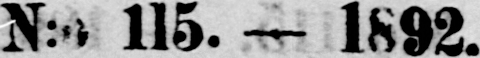N:o 115. — 1892.
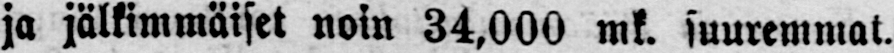ja jälkimmäiset noin 34.000 mk. suuremmat.
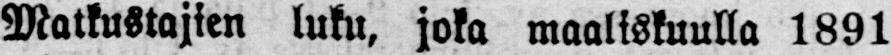Matkustajien luku. joka maaliskuulla 1891
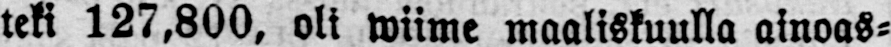teki 127,800, oli wiime maaliskuulla ainoas-
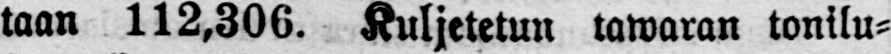taan 112,306. Kuljetetun tawaran tonilu-
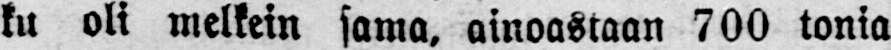ku oli melkein sama, ainoastaan 700 tonia
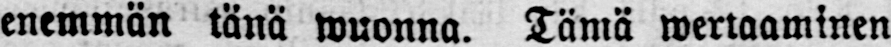enemmän tänä wuonna. Tämä wertaaminen
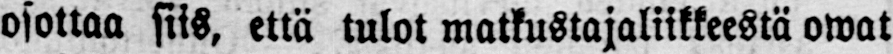osottaa siis, että tulot matkustajaliikkeestä owat
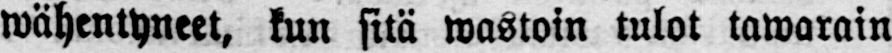wähentyneet, kun sitä wastoin tulot tawarain
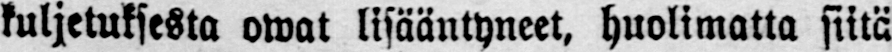kuljetuksesta owat lisääntyneet, huolimatta siitä
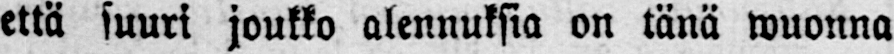että suuri joukko alennuksia on tänä wuonna
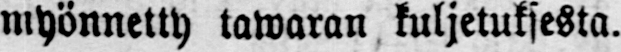myönnetty tawaran kuljetuksesta.
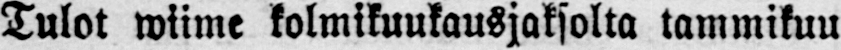Tulot wiime kolmikuukausjaksolta tammikuu
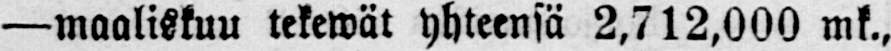—maaliskuu tekewät yhteensä 2,712,000 mk.,
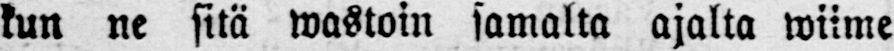kun ne sitä wastoin samalta ajalta wiime
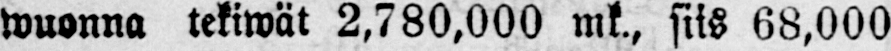wuonna tekiwät 2,780,000 mk., siis 68,000
